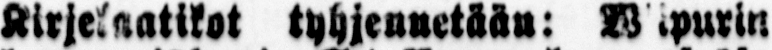Kirjelaatikot tyhjennetään: Wiipurin
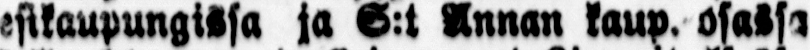esikaupungissa ja S:t Annan kaup. osassa
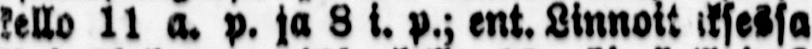kello 11 a. p. ja 8 i. p.; ent. Linnoituksessa
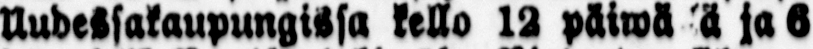Uudessakaupungissa kello 12 päiwä ä ja 6
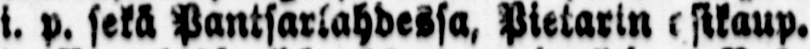i. p. sekä Pantsarlahdessa, Pietarin esikaup.
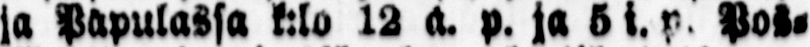ja Papulaissa k:lo 12 a. p. ja 5 i. p. Pos-
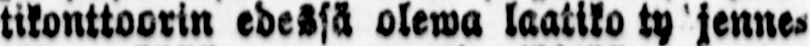tikonttoorin edessä olewa laatiko ty jenne-
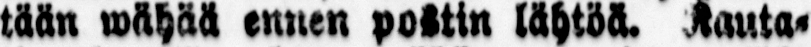tään wähää ennen postin lähtöä. Rauta-
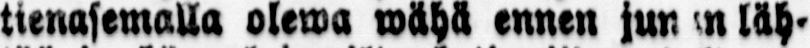tienasemalla olewa wähä ennen jun n läh-
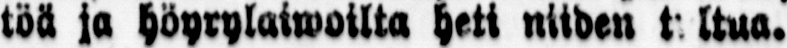töä ja höyrylaiwoilta heti niiden tultua.
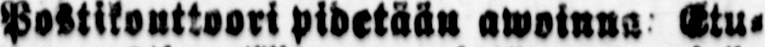Postikonttoori pidetään awoinna: Etu-
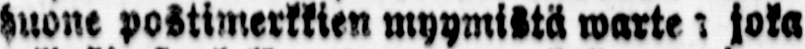huone postimerkkien myymistä warten joka
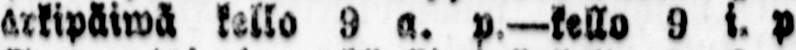arkäiwä Kello 9 a. p.—kello 9 i. p
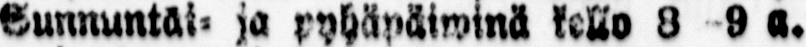Sunnuntai- ja pyhäpäiwinä kello 8 9 a.
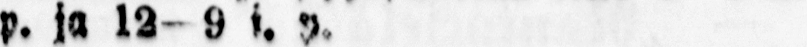p. ja 12 9 i. y.
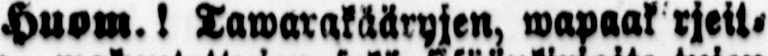Huom.! Tawarakääryjen, wapaak rjeit-
